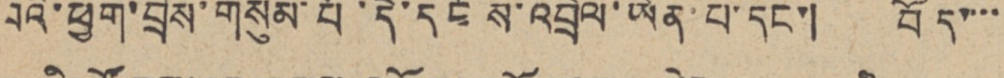བའི་ཕྱག་བྲིས་གསུམ་པོ་དེ་དངོས་འབྲེལ་ཡིན་པ་དང་། བོད་་་་
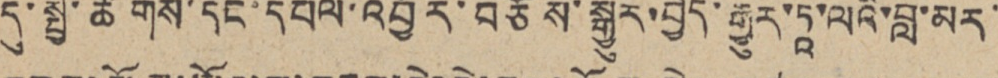དུ་སྤྱི་ཚོགས་དང་དཔལ་འབྱོར་བཅོས་སྒྱུར་བྱེད་རྒྱུར་ཏཱ་ལའི་བླ་མར་
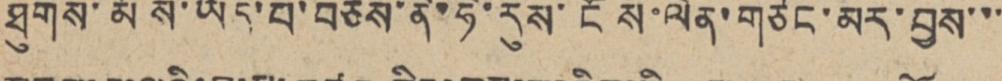ཐུགས་མོས་ཡོད་པ་བཅས་ནེ་ཧེ་རུས་ངོས་ལེན་གཙང་མར་བྱས་་་
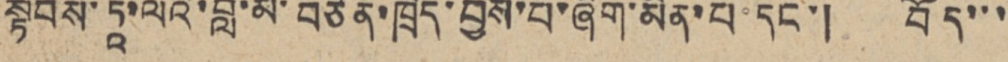སྟབས་ཏཱ་ལའི་བླ་མ་བཙན་ཁྲིད་བྱས་པ་ཞིག་མིན་པ་དང་། བོད་་་
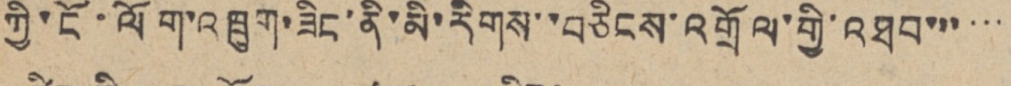ཀྱི་ངོ་ལོག་འཁྲུག་ཟིང་ནི་མི་རིགས་བཅིངས་འགྲོལ་གྱི་འཐབ་་་་་་
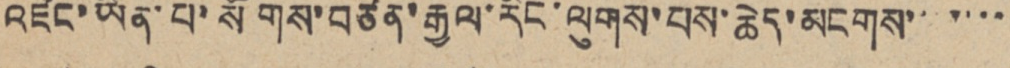འཛིང་ཡིན་པ་སོགས་བཙན་རྒྱལ་རིང་ལུགས་པས་ཆེད་མངགས་་་་་་་
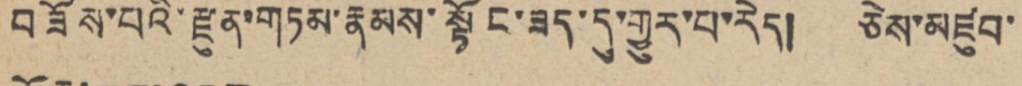བཟོས་པའི་རྫུན་གཏམ་རྣམས་སྟོང་ཟད་དུ་གྱུར་བ་རེད། ཅེས་མཛུབ་
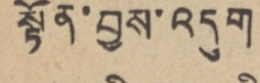སྟོན་བྱས་འདུག
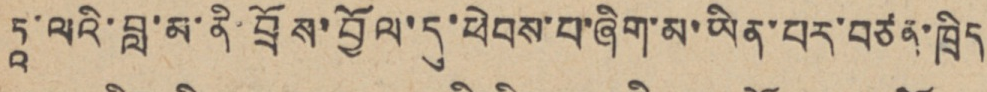ཏཱ་ལའི་བླ་མ་ནི་བྲོས་བྱོལ་དུ་ཕེབས་པ་ཞིག་མ་ཡིན་པར་བཙན་ཁྲིད
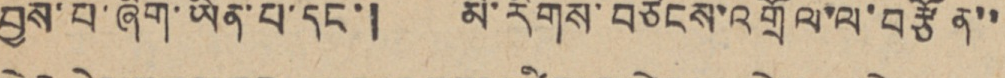བྱས་པ་ཞིག་ཡིན་པ་དང་། མི་རིགས་བཅིངས་འགྲོལ་ལ་བརྩོན་་
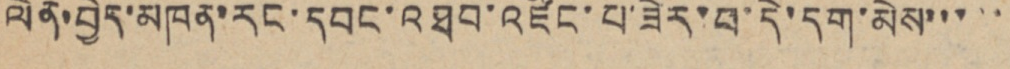ལེན་བྱེད་མཁན་རང་དབང་འཐབ་འཛིང་པ་ཟེར་བ་དེ་དག་མེས་་་་་
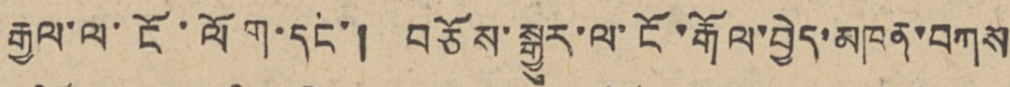རྒྱལ་ལ་ངོ་ལོག་དང་། བཅོས་སྒྱུར་ལ་ངོ་རྒོལ་བྱེད་མཁན་བཀས
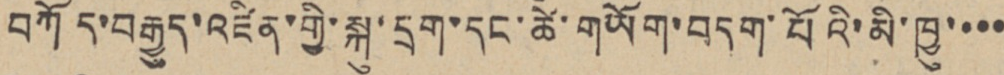བཀོད་བརྒྱུད་འཛིན་གྱི་སྐུ་དྲག་དང་ཚེ་གཡོག་བདག་པོའི་མི་ཁྱུ་་་་
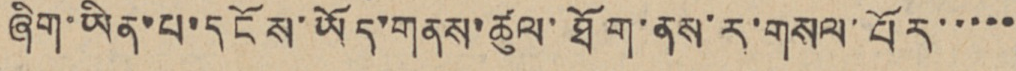ཞིག་ཡིན་པ་དངོས་ཡོད་གནས་ཚུལ་ཐོག་ནས་ར་གསལ་པོར་་་་་
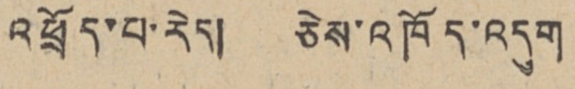འཕྲོད་པ་རེད། ཅེས་འཁོད་འདུག
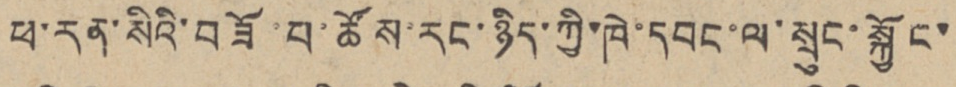ཕ་རན་སིའི་བཟོ་པ་ཚོས་རང་ཉིད་ཀྱི་ཁེ་དབང་ལ་སྲིང་སྐྱོང་
